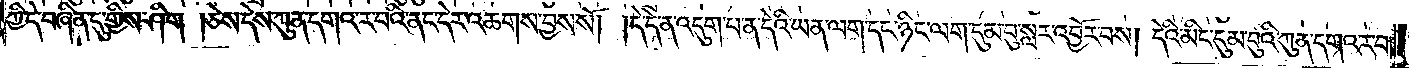ཀྱི་དེ་བཞིན་དུ་གྱིས་ཤིག །ཅེས་དེས་ཀུན་དགའ་ར་བའི་ནང་དེར་འཆགས་བྱས་སོ། །དེ་དེ་ན་འདུག་པ་ན་དེའི་ཡན་ལག་དང་ཉིང་ལག་དུམ་བུ་སླར་འབྱོར་བས། དེའི་མིང་དུམ་བུའི་ཀུན་དགའ་ར་བ་
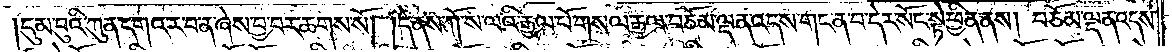དུམ་བུའི་ཀུན་དགའ་ར་བ་ན་ཞེས་བྱ་བར་ཆགས་སོ། །དེ་ནས་ཀོ་ས་ལའི་རྒྱལ་པོ་གསལ་རྒྱལ་བཅོམ་ལྡན་འདས་གང་ན་བ་དེར་སོང་སྟེ་ཕྱིན་ནས། བཅོམ་ལྡན་འདས་
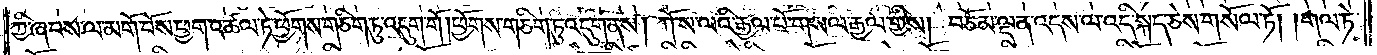ཀྱི་ཞབས་ལ་མགོ་བོས་ཕྱག་འཚལ་ཏེ་ཕྱོགས་གཅིག་ཏུ་འདུག་གོ །ཕྱོགས་གཅིག་ཏུ་འདུག་ནས། ཀོ་ས་ལའི་རྒྱལ་པོ་གསལ་རྒྱལ་གྱིས། བཅོམ་ལྡན་འདས་ལ་འདི་སྐད་ཅེས་གསོལ་ཏོ། །གལ་ཏེ་
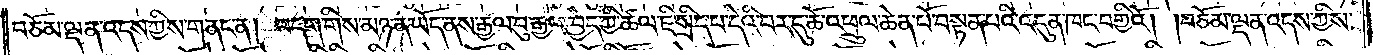བཅོམ་ལྡན་འདས་ཀྱིས་གནང་ན། བདག་གིས་མཉན་ཡོད་ནས་རྒྱལ་བུ་རྒྱལ་བྱེད་ཀྱི་ཚལ་ཇི་སྲིད་པ་དེའི་བར་དུ་ཆོ་འཕྲུལ་ཆེན་པོ་བསྟན་པའི་འདུན་ཁང་བགྱིའོ། །བཅོམ་ལྡན་འདས་ཀྱིས་
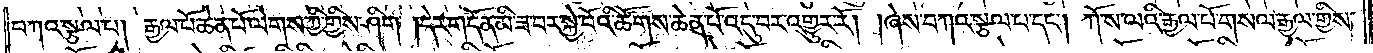བཀའ་སྩལ་པ། རྒྱལ་པོ་ཆེན་པོ་ལེགས་ཀྱི་གྱིས་ཤིག །དེར་གདོན་མི་ཟ་བར་སྐྱེ་བོའི་ཚོགས་ཆེན་པོ་འདུ་བར་འགྱུར་རོ། །ཞེས་བཀའ་སྩལ་པ་དང༌། ཀོ་ས་ལའི་རྒྱལ་པོ་གསལ་རྒྱལ་གྱིས་
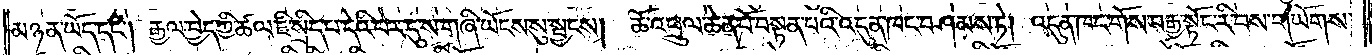མཉན་ཡོད་དང༌། རྒྱལ་བྱེད་ཀྱི་ཚལ་ཇི་སྲིད་པ་དེའི་བར་དུ་ས་གཞི་ཡོངས་སུ་སྦྱངས། ཆོ་འཕྲུལ་ཆེན་པོ་བསྟན་པའི་འདུན་ཁང་བཤམས་ཏེ། འདུན་ཁང་གོས་བརྒྱ་སྟོང་རི་བས་གཡོགས་
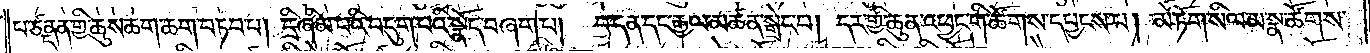པ་ཙནྡན་གྱི་ཆུས་ཆག་ཆག་བཏབ་པ། དྲི་ཞིམ་པའི་བདུག་པའི་སྣོད་བཞག་པ། བ་དན་དང་རྒྱལ་མཚན་སྒྲེང་བ། དར་གྱི་ཆུན་འཕྱང་གི་ཚོགས་དཔྱངས་པ། མེ་ཏོག་སིལ་མ་སྣ་ཚོགས་
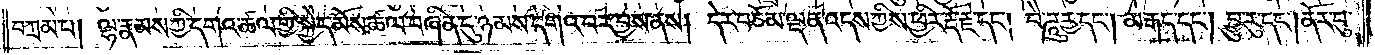བཀྲམ་པ། ལྷ་རྣམས་ཀྱི་དགའ་ཚལ་གྱི་སྐྱེད་མོས་ཚལ་བཞིན་དུ་ཉམས་དགའ་བར་བྱས་ནས། དེར་བཅོམ་ལྡན་འདས་ཀྱིས་ཕྱིར་རྡོ་རྗེ་དང༌། བཻ་ཌཱུཪྻ་དང༌། མརྒད་དང༌། བྱུ་རུ་དང༌། ནོར་བུ་
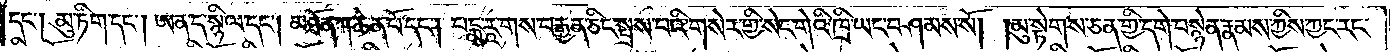དང༌། མུ་ཏིག་དང༌། ཨན་ད་སྙིལ་དང༌། མཐོན་ཀ་ཆེན་པོ་དང༌། པདྨ་རཱ་གས་བརྒྱན་ཅིང་སྤྲས་པའི་གསེར་གྱི་སེང་གེའི་ཁྲི་ཡང་བཤམས་སོ། །མུ་སྟེགས་ཅན་གྱི་དགེ་བསྙེན་རྣམས་ཀྱིས་ཀྱང་རང་
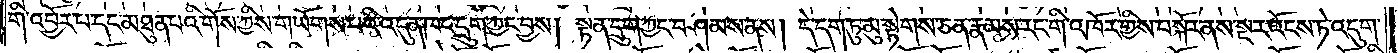གི་འབྱོར་པ་དང་མཐུན་པའི་གོས་ཀྱིས་གཡོགས་པའི་འདུན་ཁང་དྲུག་ཀྱང་བྱས། སྟན་དྲུག་ཀྱང་བཤམས་ནས། དེ་དག་ཏུ་མུ་སྟེགས་ཅན་རྣམས་རང་གི་འཁོར་གྱིས་བསྐོར་ནས་སྔར་འོངས་ཏེ་འདུག་
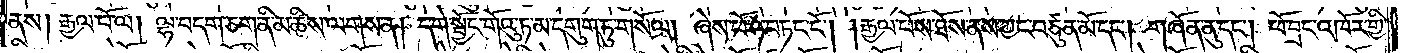ནས། རྒྱལ་པོ་ལ། ལྷ་བདག་ཅག་ནི་མཆིས་ལགས་ན། དགེ་སྦྱོང་གོའུ་ཏ་མ་དགུག་ཏུ་གསོལ། ཞེས་ཕོ་ཉ་བཏང་ངོ༌། །རྒྱལ་པོས་ཐོས་ནས་ཀྱང་བཙུན་མོ་དང༌། གཞོན་ནུ་དང༌། ཕོ་བྲང་འཁོར་གྱི་
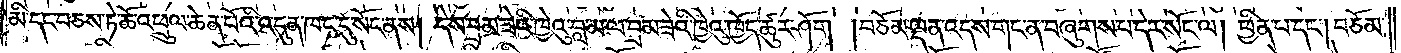མི་དང་བཅས་ཏེ་ཆོ་འཕྲུལ་ཆེན་པོའི་འདུན་ཁང་དུ་སོང་ནས། དེས་བྲམ་ཟེའི་ཁྱེའུ་བླ་མ་ལ་བྲམ་ཟེའི་ཁྱེའུ་ཁྱོད་ཚུར་ཤོག །བཅོམ་ལྡན་འདས་གང་ན་བཞུགས་པ་དེར་སོང་ལ། ཕྱིན་པ་དང༌། བཅོམ་
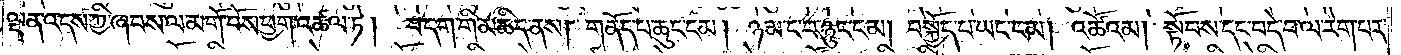ལྡན་འདས་ཀྱི་ཞབས་ལ་མགོ་བོས་ཕྱག་འཚལ་ཏེ། བདག་གི་མཆིད་ནས། གནོད་པ་ཆུང་ངམ། ཉམ་ང་བ་ཉུང་ངམ། བསྐྱོད་པ་ཡང་ངམ། འཚོའམ། སྟོབས་དང་བདེ་བ་ལ་རེག་པར་
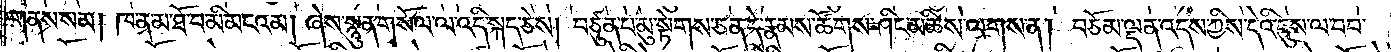གནས་སམ། ཁ་ན་མ་ཐོ་བ་མི་མངའམ། ཞེས་སྙུན་གསོལ་ལ་འདི་སྐད་ཅེས། བཙུན་པ་མུ་སྟེགས་ཅན་དེ་རྣམས་ཚོགས་ཤིང་མཆིས་ལགས་ན། བཅོམ་ལྡན་འདས་ཀྱིས་དེའི་དུས་ལ་བབ་
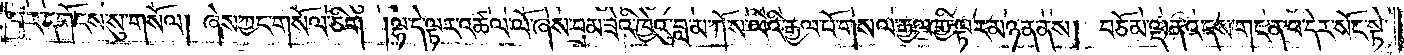པར་དགོངས་སུ་གསོལ། ཞེས་ཀྱང་གསོལ་ཅིག །ལྷ་དེ་ལྟར་འཚལ་ལོ་ཞེས་བྲམ་ཟེའི་ཁྱེའུ་བླ་མ་ཀོ་ས་ལའི་རྒྱལ་པོ་གསལ་རྒྱལ་གྱི་ལྟར་མཉན་ནས། བཅོམ་ལྡན་འདས་གང་ན་བ་དེར་སོང་སྟེ་
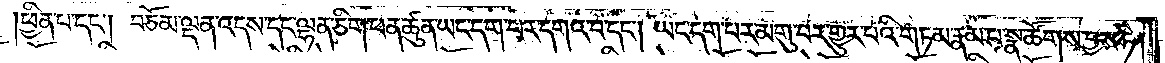ཕྱིན་པ་དང༌། བཅོམ་ལྡན་འདས་དང་ལྷན་ཅིག་ཕན་ཚུན་ཡང་དག་པར་དགའ་བ་དང༌། ཡང་དག་པར་མགུ་བར་གྱུར་པའི་གཏམ་རྣམ་པ་སྣ་ཚོགས་བྱས་ཏེ།
